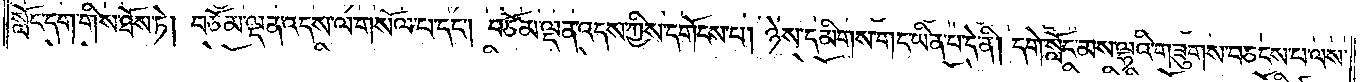སློང་དག་གིས་ཐོས་ཏེ། བཅོམ་ལྡན་འདས་ལ་གསོལ་བ་དང༌། བཅོམ་ལྡན་འདས་ཀྱིས་དགོངས་པ། ཉེས་དམིགས་གང་ཡིན་པ་དེ་ནི། དགེ་སློང་མས་ལྷའི་གཟུགས་བཅངས་པ་ལས་
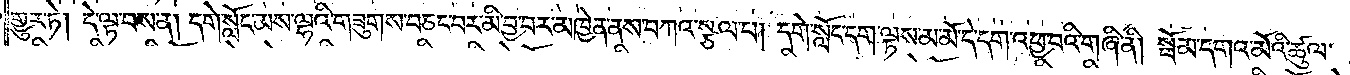གྱུར་ཏེ། དེ་ལྟ་བས་ན། དགེ་སློང་མས་ལྷའི་གཟུགས་བཅང་བར་མི་བྱ་བར་མཁྱེན་ནས་བཀའ་སྩལ་པ། དགེ་སློང་དག་ལྟས་མ་མོ་དེ་དག་འཕྱ་བའི་གཞི་ནི། སྦོམ་དགའ་མོའི་ཚུལ་
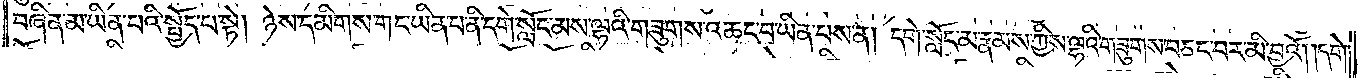བཞིན་མ་ཡིན་པའི་སྤྱོད་པ་སྟེ། ཉེས་དམིགས་གང་ཡིན་པ་ནི་དགེ་སློང་མས་ལྷའི་གཟུགས་འཆང་བ་ཡིན་པས་ན། དགེ་སློང་མ་རྣམས་ཀྱིས་ལྷའི་གཟུགས་བཅང་བར་མི་བྱའོ། །དགེ་
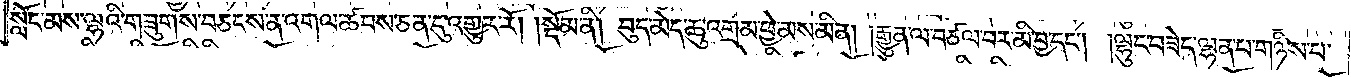སློང་མས་ལྷའི་གཟུགས་བཅངས་ན་འགལ་ཚབས་ཅན་དུ་འགྱུར་རོ།    །སྡོམ་ནི། བུད་མེད་ཆུ་འགྲམ་ཕྱེ་མས་མིན། རྒྱུན་ལ་བཙལ་བར་མི་བྱ་དང༌། །ལྷུང་བཟེད་ལྷན་པ་གཉིས་པ་
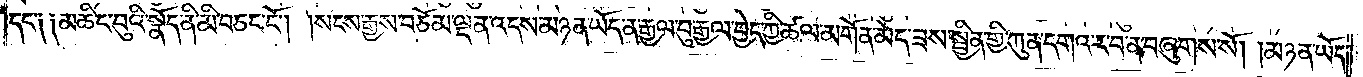དང་༑ ༑མཆིང་བུའི་སྣོད་ནི་མི་བཅང་ངོ༌། །སངས་རྒྱས་བཅོམ་ལྡན་འདས་མཉན་ཡོད་ན་རྒྱལ་བུ་རྒྱལ་བྱེད་ཀྱི་ཚལ་མགོན་མེད་ཟས་སྦྱིན་གྱི་ཀུན་དགའ་ར་བ་ན་བཞུགས་སོ། །མཉན་ཡོད་
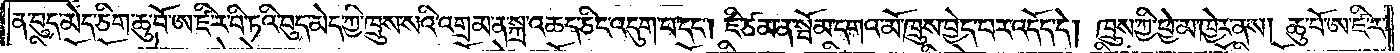ན་བུད་མེད་ཅིག་ཆུ་བོ་ཨ་ཛི་ར་བི་ཏའི་བུད་མེད་ཀྱི་ཁྲུས་སའི་འགྲམ་ན་སྐྲ་འཆད་ཅིང་འདུག་པ་དང༌། ཇི་ཙམ་ན་སྦོམ་དགའ་མོ་ཁྲུས་བྱེད་པར་འདོད་དེ། ཁྲུས་ཀྱི་ཕྱེ་མ་ཁྱེར་ནས། ཆུ་བོ་ཨ་ཛི་ར་
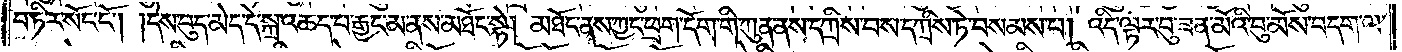བ་ཏིར་སོང་ངོ༌། །དེས་བུད་མེད་དེ་སྐྲ་འཆད་བརྒྱང་མ་ནས་མཐོང་སྟེ། མཐོང་ནས་ཀྱང་ཕྲག་དོག་གི་ཀུན་ནས་དཀྲིས་པས་དཀྲིས་ཏེ་བསམས་པ། འདི་ལྟར་བུ་ཟན་མོའི་བུ་མོས་བདག་ལ་
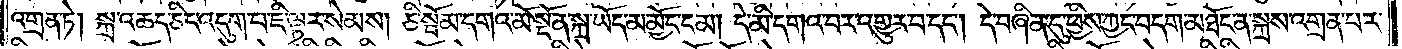འགྲན་ཏེ། སྐྲ་འཆད་ཅིང་འདུག་པ་ཇི་ལྟར་སེམས། ཅི་སྦོམ་དགའ་མོ་སྔོན་སྐྲ་ཡོད་མ་མྱོང་ངམ། དེ་མི་དགའ་བར་འགྱུར་བ་དང༌། དེ་བཞིན་དུ་ཕྱིས་ཀྱང་བདག་མཐོང་ནས་སྐྲས་འགྲན་པར་
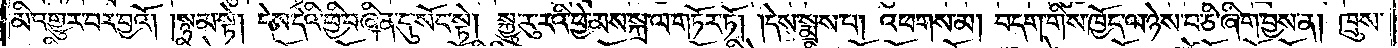མི་འགྱུར་བར་བྱའོ། སྙམ་སྟེ། དེས་དེའི་ཕྱི་བཞིན་དུ་སོང་སྟེ། སྐྱུ་རུ་རའི་ཕྱེ་མས་སྐྲ་ལ་གཏོར་ཏོ། །དེས་སྨྲས་པ། འཕགས་མ། བདག་གིས་ཁྱོད་ལ་ཉེས་པ་ཅི་ཞིག་བྱས་ན། ཁྲུས་
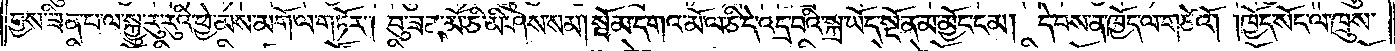བྱས་ཟིན་པ་ལ་སྐྱུ་རུ་རུའི་ཕྱེ་མས་མགོ་ལ་གཏོར། །བུ་ཟན་མོ་ཅི་མི་ཤེས་སམ། སྦོམ་དགའ་མོ་ལ་ཅི་དེ་འདྲ་བའི་སྐྲ་ཡོད་སྔོན་མ་མྱོང་ངམ། དེ་བས་ན་ཁྱོད་ལ་གཙེའོ། །ཁྱོད་སོང་ལ་ཁྲུས་
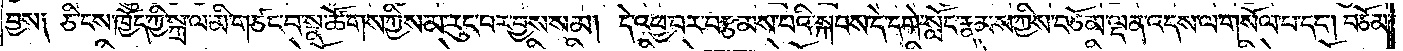བྱས༑ ཅི་ངས་ཁྱོད་ཀྱི་སྐྲ་ལ་མི་གཙང་བ་སྣ་ཚོགས་ཀྱིས་མ་རུངས་པར་བྱས་སམ། དེ་འཕྱ་བར་བརྩམས་པའི་སྐབས་དེ་དགེ་སློང་རྣམས་ཀྱིས་བཅོམ་ལྡན་འདས་ལ་གསོལ་བ་དང༌། བཅོམ་
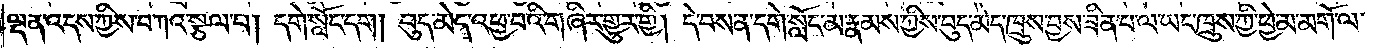ལྡན་འདས་ཀྱིས་བཀའ་སྩལ་པ། དགེ་སློང་དག །བུད་མེད་འཕྱ་བའི་གཞིར་གྱུར་གྱི། དེ་བས་ན་དགེ་སློང་མ་རྣམས་ཀྱིས་བུད་མེད་ཁྲུས་བྱས་ཟིན་པ་ལ་ཡང་ཁྲུས་ཀྱི་ཕྱེ་མ་མགོ་ལ་
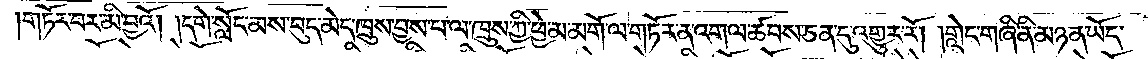གཏོར་བར་མི་བྱའོ། །དགེ་སློང་མས་བུད་མེད་ཁྲུས་བྱས་པ་ལ་ཁྲུས་ཀྱི་ཕྱེ་མ་མགོ་ལ་གཏོར་ན་འགལ་ཚབས་ཅན་དུ་འགྱུར་རོ། །གླེང་གཞི་ནི་མཉན་ཡོད་
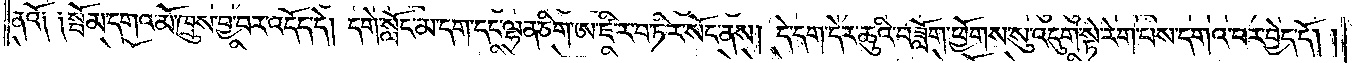ནའོ། །སྦོམ་དགའ་མོ་ཁྲུས་བྱ་བར་འདོད་དེ། དགེ་སློང་མ་དག་དང་ལྷན་ཅིག་ཨ་ཛི་ར་བ་ཏིར་སོང་ནས། དེ་དག་དེར་ཆུའི་བཟློག་ཕྱོགས་སུ་འདུག་སྟེ་རེག་པས་དགའ་བར་བྱེད་དོ། །
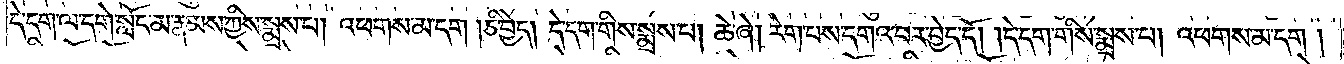དེ་དག་ལ་དགེ་སློང་མ་རྣམས་ཀྱིས་སྨྲས་པ། འཕགས་མ་དག །ཅི་བྱེད། དེ་དག་གིས་སྨྲས་པ། ཆེ་ཞེ། རེག་པས་དགའ་བར་བྱེད་དོ། །དེ་དག་གིས་སྨྲས་པ། འཕགས་མ་དག །
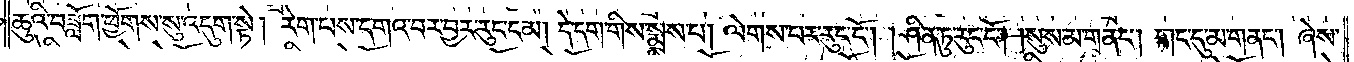ཆུའི་བཟློག་ཕྱོགས་སུ་འདུག་སྟེ། རེག་པས་དགའ་བར་བྱར་རུང་ངམ། དེ་དག་གིས་སྨྲས་པ། ལེགས་པར་རུང་ངོ༌། །ཤིན་ཏུ་རུང་ངོ༌། །སུས་མ་གནང༌། གང་དུ་མ་གནང༌། ཞེས་
